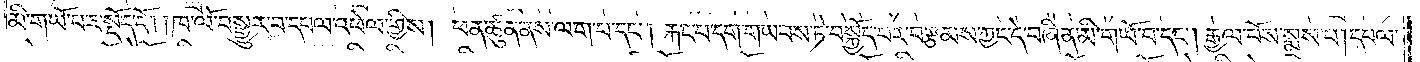མི་གཡོ་བར་སྡོད་དོ། །ཁ་ལོ་བསྒྱུར་བ་དཔལ་འཕེལ་གྱིས། ཕན་ཚུན་ནས་ལག་པ་དང༌། རྐང་པ་དག་གཡབས་ཏེ་བསྐྱོད་པར་བརྩམས་ཀྱང་དེ་བཞིན་མི་གཡོ་བ་དང༌། རྒྱལ་པོས་སྨྲས་པ། དཔལ་
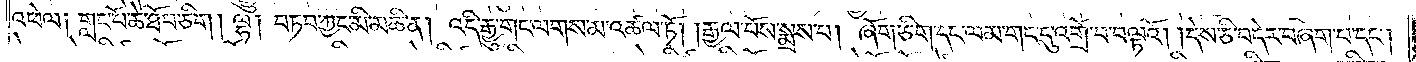འཕེལ༑ གླང་པོ་ཆེ་ཐོབ་ཅིག །ལྷ། བཏབ་ཀྱང་མི་མཆི་ན། འདི་རྒྱུ་གང་ལགས་མ་འཚལ་ཏོ། །རྒྱལ་པོས་སྨྲས་པ། ཞོག་ཅིག་དང་ལམ་གང་དུ་འགྲོ་བ་བལྟའོ། །དེས་ཅི་བདེར་བཞག་པ་དང༌།
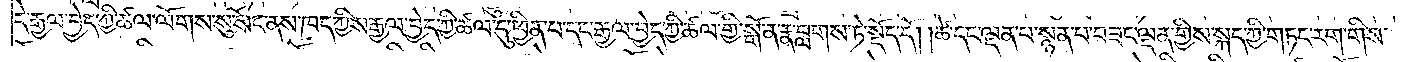དེ་རྒྱལ་བྱེད་ཀྱི་ཚལ་ལོགས་སུ་སོང་ནས་ཁད་ཀྱིས་རྒྱལ་བྱེད་ཀྱི་ཚལ་དུ་ཕྱིན་པ་དང་རྒྱལ་བྱེད་ཀྱི་ཚལ་གྱི་སྒོ་ན་རྣ་བླགས་ཏེ་སྡོད་དོ། །ཚེ་དང་ལྡན་པ་སྙན་པ་བཟང་ལྡན་གྱིས་སྐད་ཀྱི་གཏང་རག་གིས་
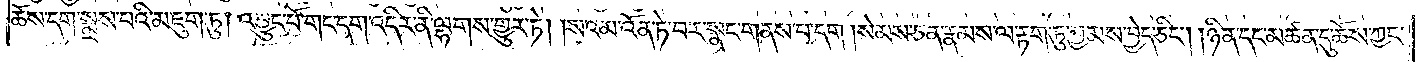ཆོས་དག་སྨྲས་པའི་མཇུག་ཏུ། འབྱུང་པོ་གང་དག་འདིར་ནི་ལྷགས་གྱུར་ཏེ། །ས་འམ་འོན་ཏེ་བར་སྣང་གནས་པ་དག །སེམས་ཅན་རྣམས་ལ་རྟག་ཏུ་བྱམས་བྱེད་ཅིང༌། །ཉིན་དང་མཚན་དུ་ཆོས་ཀྱང་
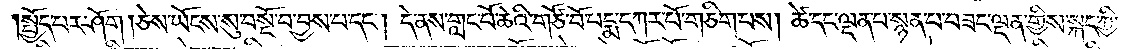སྤྱོད་པར་ཤོག །ཅེས་ཡོངས་སུ་བསྔོ་བ་བྱས་པ་དང༌། དེ་ནས་གླང་པོ་ཆེའི་གཙོ་བོ་པདྨ་དཀར་པོ་གཅིག་པས། ཚེ་དང་ལྡན་པ་སྙན་པ་བཟང་ལྡན་གྱིས་སྐད་ཀྱི་
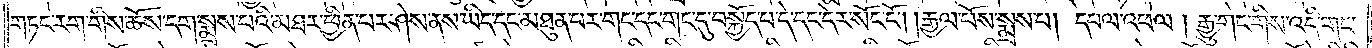གཏང་རག་གིས་ཆོས་དག་སྨྲས་པའི་མཐར་ཕྱིན་པར་ཤེས་ནས་ཡིད་དང་མཐུན་པར་གང་དང་གང་དུ་བསྐྱོད་པ་དེ་དང་དེར་སོང་ངོ༌། །རྒྱལ་པོས་སྨྲས་པ། དཔལ་འཕེལ། རྒྱུ་གང་གིས་འདི་གང་
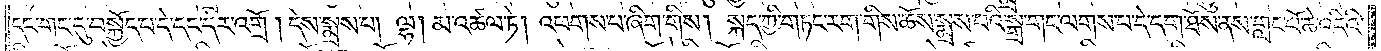དང་གང་དུ་བསྐྱོད་པ་དེ་དང་དེར་འགྲོ ། དེས་སྨྲས་པ། ལྷ། མ་འཚལ་ཏེ། འཕགས་པ་ཞིག་གིས། སྐད་ཀྱི་གཏང་རག་གིས་ཆོས་སྨྲས་པའི་སྒྲ་གང་ལགས་པ་དེ་དག་ཐོས་ནས་གླང་པོ་ཆེ་འདིའི་
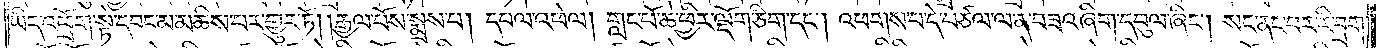ཡིད་འཕྲོག་སྟེ་དབང་མ་མཆིས་པར་གྱུར་ཏོ། །རྒྱལ་པོས་སྨྲས་པ། དཔལ་འཕེལ། གླང་པོ་ཆེ་ཕྱིར་ལྡོག་ཅིག་དང༌། འཕགས་པ་དེ་བཙལ་ལ་ན་བཟའ་ཞིག་དབུལ་ཞིང༌། སང་ནང་པར་རི་བྲག་
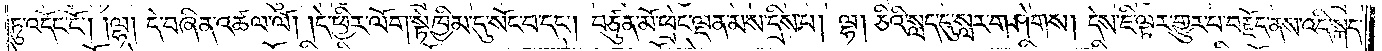ཏུ་འདོང་ངོ༌། །ལྷ། དེ་བཞིན་འཚལ་ལོ། །དེ་ཕྱིར་ལོག་སྟེ་ཁྱིམ་དུ་སོང་བ་དང༌། བཙུན་མོ་ཕྲེང་ལྡན་མས་དྲིས་པ། ལྷ། ཅིའི་སླད་དུ་སླར་གཤེགས། དེས་ཇི་ལྟར་གྱུར་པ་བརྗོད་ནས་འདི་སྐད་
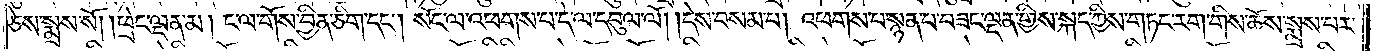ཅེས་སྨྲས་སོ། །ཕྲེང་ལྡན་མ། ང་ལ་གོས་བྱིན་ཅིག་དང༌། སོང་ལ་འཕགས་པ་དེ་ལ་དབུལ་ལོ། །དེས་བསམ་པ། འཕགས་པ་སྙན་པ་བཟང་ལྡན་གྱིས་སྐད་ཀྱིས་གཏང་རག་གིས་ཆོས་སྨྲས་པར་
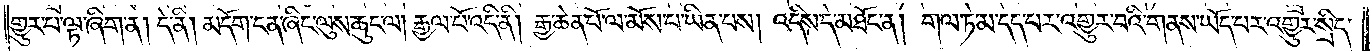གྱུར་པ་ལྟ་ཞིག་ན། དེ་ནི། མདོག་ངན་ཞིང་ལུས་ཆུང་ལ། རྒྱལ་པོ་འདི་ནི། རྒྱ་ཆེན་པོ་ལ་མོས་པ་ཡིན་པས། འདིས་དེ་མཐོང་ན། གལ་ཏེ་མ་དད་པར་འགྱུར་བའི་གནས་ཡོད་པར་འགྱུར་སྲིད་
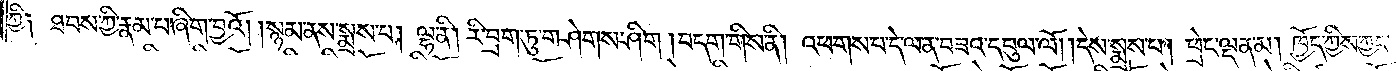ཀྱི༑ ཐབས་ཀྱི་རྣམ་པ་ཞིག་བྱའོ། །སྙམ་ནས་སྨྲས་པ། ལྷ་ནི། རི་བྲག་ཏུ་གཤེགས་ཤིག །བདག་གིས་ནི། འཕགས་པ་དེ་ལ་ན་བཟའ་དབུལ་ལོ། །དེས་སྨྲས་པ། ཕྲེང་ལྡན་མ། ཁྱོད་ཀྱིས་ཀྱང་
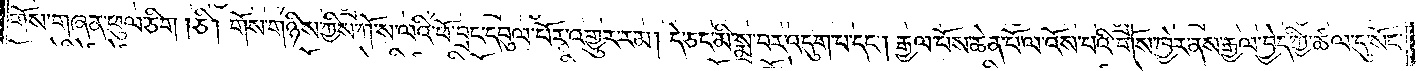གོས་གཞན་ཕུལ་ཅིག །ཅི། གོས་གཉིས་ཀྱིས་ཀོ་ས་ལའི་ཕོ་བྲང་དབུལ་པོར་འགྱུར་རམ། དེ་ཅང་མི་སྨྲ་བར་འདུག་པ་དང༌། རྒྱལ་པོས་ཆེན་པོ་ལ་འོས་པའི་གོས་ཁྱེར་ནས་རྒྱལ་བྱེད་ཀྱི་ཚལ་དུ་སོང་
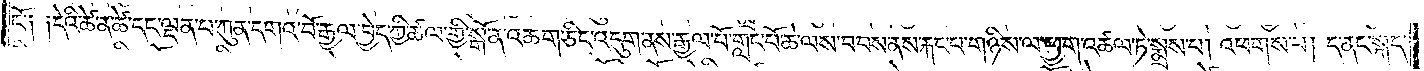ངོ༑ ༑དེའི་ཚེ་ན་ཚེ་དང་ལྡན་པ་ཀུན་དགའ་བོ་རྒྱལ་བྱེད་ཀྱི་ཚལ་གྱི་སྒོ་ན་འཆག་ཅིང་འདུག་ནས་རྒྱལ་པོ་གླང་པོ་ཆེ་ལས་བབས་ནས་རྐང་པ་གཉིས་ལ་ཕྱག་འཚལ་ཏེ་སྨྲས་པ། འཕགས་པ། ད་ནང་སྐད་
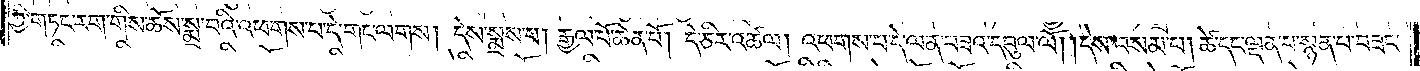ཀྱི་གཏང་རག་གིས་ཆོས་སྨྲ་བའི་འཕགས་པ་དེ་གང་ལགས། དེས་སྨྲས་པ། རྒྱལ་པོ་ཆེན་པོ། དེ་ཅིར་འཚལ། འཕགས་པ་དེ་ལ་ན་བཟའ་དབུལ་ལོ། །དེས་བསམ་པ། ཚེ་དང་ལྡན་པ་སྙན་པ་བཟང་
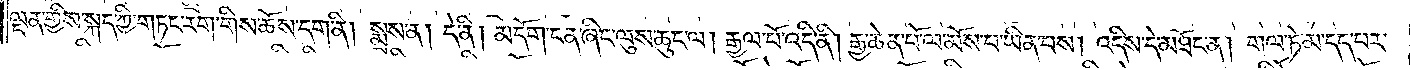ལྡན་གྱིས་སྐད་ཀྱི་གཏང་རག་གིས་ཆོས་དག་ནི། སྨྲས་ན། དེ་ནི། མདོག་ངན་ཞིང་ལུས་ཆུང་ལ། རྒྱལ་པོ་འདི་ནི། རྒྱ་ཆེན་པོ་ལ་མོས་པ་ཡིན་པས། འདིས་དེ་མཐོང་ན། གལ་ཏེ་མ་དད་པར་
